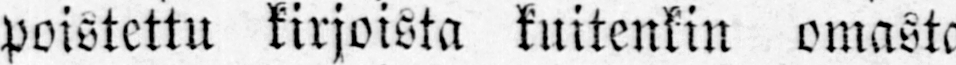poistettu kirjoista kuitenkin omasta
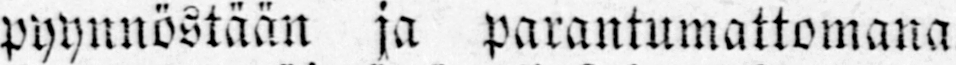pyynnöstään ja parantumattomana.
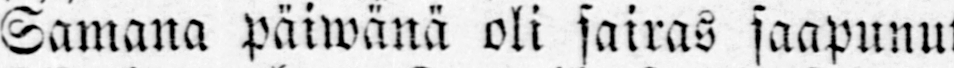Samana päiwänä oli sairas saapunut
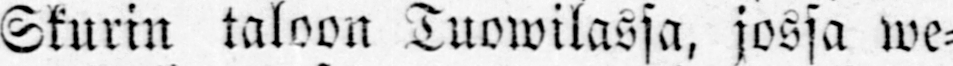Skurin taloon Tuowilassa, jossa we-
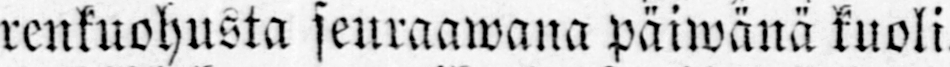renkuohusta seuraawana päiwänä kuoli.
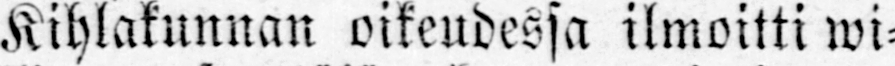Kihlakunnan oikeudessa ilmoitti wi-
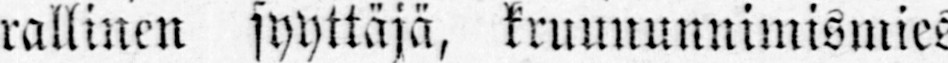rallinen syyttäjä, kruununnimismies
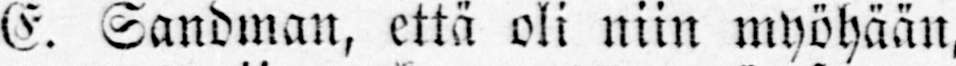E. Sandman, että oli niin myöhään,
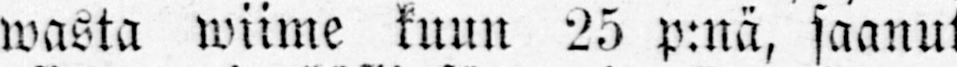wasta wiime kuun 25 p:nä, saanut
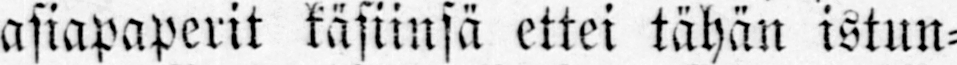asiapaperit käsiinsä ettei tähän istun-
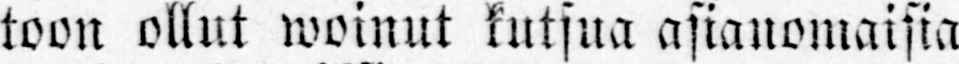toon ollut woinut kutsua asianomaisia
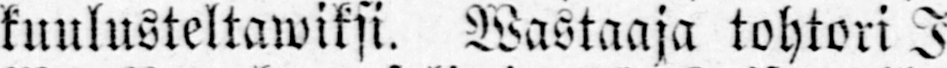kuulusteltawiksi. Wastaaja tohtori I.
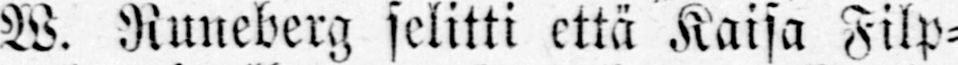W. Runeberg selitti että Kaisa Filp-
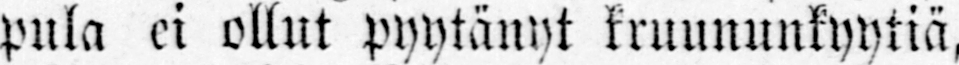pula ei ollut pyytänyt kruununkyytiä,
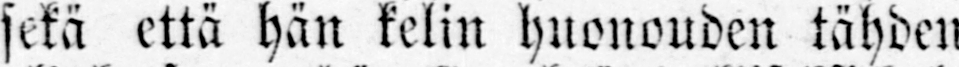sekä että hän kelin huonouden tähden
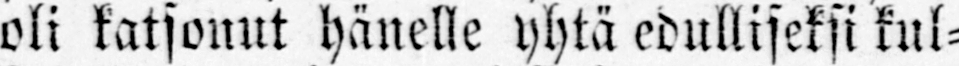oli katsonut hänelle yhtä edulliseksi kul-
